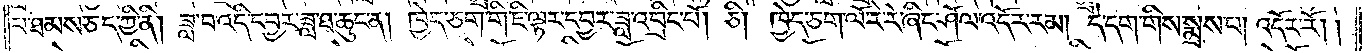པ་ཐམས་ཅད་ཀྱི་ནི། ཟླ་བ་འདི་དབྱར་ཟླ་ཐ་ཆུང་ན། ཁྱེད་ཅག་གི་ཇི་ལྟར་དབྱར་ཟླ་འབྲིང་པོ། ཅི། ཁྱེད་ཅག་ལོ་རེ་རེ་ཞིང་ཤོལ་འདོར་རམ། དེ་དག་གིས་སྨྲས་པ། འདོར་རོ། །
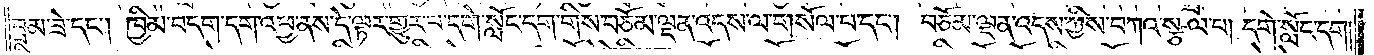བྲམ་ཟེ་དང༌། ཁྱིམ་བདག་དག་འཕྱ་ནས་དེ་ལྟར་གྱུར་པ་དགེ་སློང་དག་གིས་བཅོམ་ལྡན་འདས་ལ་གསོལ་པ་དང༌། བཅོམ་ལྡན་འདས་ཀྱིས་བཀའ་སྩལ་པ། དགེ་སློང་དག།
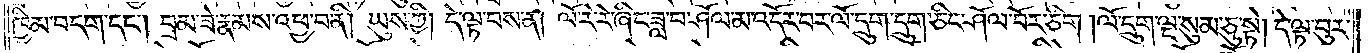ཁྱིམ་བདག་དང༌། བྲམ་ཟེ་རྣམས་འཕྱ་བ་ནི། ཡུས་ཀྱི། དེ་ལྟ་བས་ན། ལོ་རེ་རེ་ཞིང་ཟླ་བ་ཤོལ་མ་འདོར་བར་ལོ་དྲུག་དྲུག་ཅིང་ཤོལ་བོར་ཅིག །ལོ་དྲུག་ལྔ་སུམ་ཅུ་སྟེ། དེ་ལྟ་བུར་
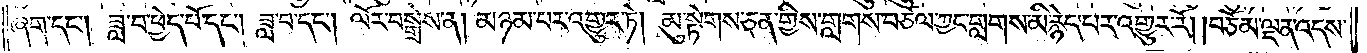ཞག་དང༌། ཟླ་བ་ཕྱེད་པོ་དང༌། ཟླ་བ་དང༌། ལོར་བསྒྲེས་ན། མཉམ་པར་འགྱུར་ཏེ། མུ་སྟེགས་ཅན་གྱིས་གླགས་བཙལ་ཀྱང་གླགས་མི་རྙེད་པར་འགྱུར་རོ། །བཅོམ་ལྡན་འདས་
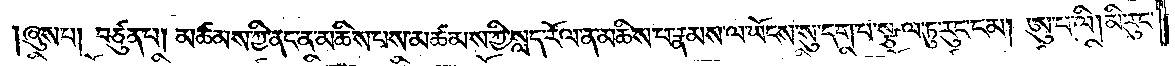ཞུས་པ། བཙུན་པ། མཚམས་ཀྱི་ནང་ན་མཆིས་པས་མཚམས་ཀྱི་སླད་རོལ་ན་མཆིས་པ་རྣམས་ལ་ཡོངས་སུ་དག་པ་སྩལ་ཏུ་རུང་ངམ། ཨུ་པ་ལི། མི་རུང་
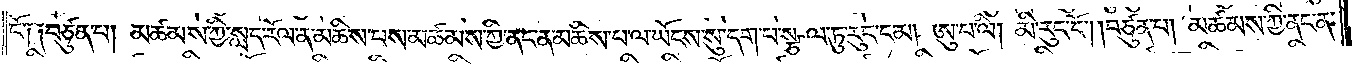ངོ༑ ༑བཙུན་པ། མཚམས་ཀྱི་སླད་རོལ་ན་མཆིས་པས་མཚམས་ཀྱི་ནང་ན་མཆིས་པ་ལ་ཡོངས་སུ་དག་པ་སྩལ་ཏུ་རུང་ངམ། ཨུ་པ་ལི། མི་རུང་ངོ༌། །བཙུན་པ། མཚམས་ཀྱི་ནང་ན་
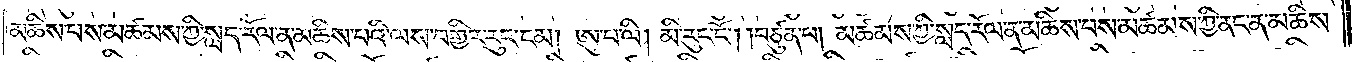མཆིས་པས་མཚམས་ཀྱི་སླད་རོལ་ན་མཆིས་པའི་ལས་བགྱིར་རུང་ངམ། ཨུ་པ་ལི། མི་རུང་ངོ༌། །བཙུན་པ། མཚམས་ཀྱི་སླད་རོལ་ན་མཆིས་པས་མཚམས་ཀྱི་ནང་ན་མཆིས་
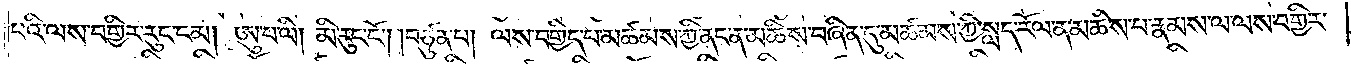པའི་ལས་བགྱིར་རུང་ངམ། ཨུ་པ་ལི། མི་རུང་ངོ༌། །བཙུན་པ། ལས་བགྱིད་པ་མཚམས་ཀྱི་ནང་ན་མཆིས་བཞིན་དུ་མཚམས་ཀྱི་སླད་རོལ་ན་མཆིས་པ་རྣམས་ལ་ལས་བགྱིར་
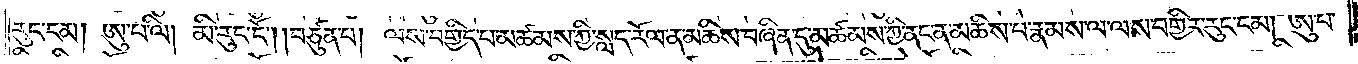རུང་ངམ། ཨུ་པ་ལི། མི་རུང་ངོ༌། །བཙུན་པ། ལས་བགྱིད་པ་མཚམས་ཀྱི་སླད་རོལ་ན་མཆིས་བཞིན་དུ་མཚམས་ཀྱི་ནང་ན་མཆིས་པ་རྣམས་ལ་ལས་བགྱིར་རུང་ངམ། ཨུ་པ་
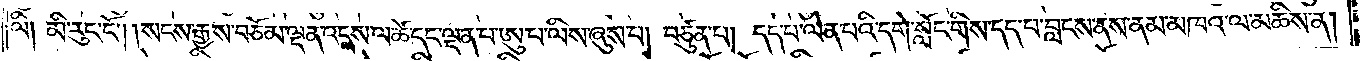ལི། མི་རུང་ངོ༌། །སངས་རྒྱས་བཅོམ་ལྡན་འདས་ལ་ཚེ་དང་ལྡན་པ་ཨུ་པ་ལིས་ཞུས་པ། བཙུན་པ། དད་པ་ལེན་པའི་དགེ་སློང་གིས་དད་པ་བླངས་ནས་ནམ་མཁའ་ལ་མཆིས་ན།
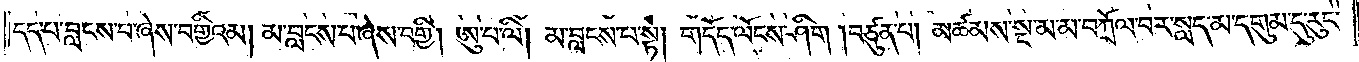དད་པ་བླངས་པ་ཞེས་བགྱིའམ། མ་བླངས་པ་ཞེས་བགྱི། ཨུ་པ་ལི། མ་བླངས་པ་སྟེ། གདོད་ལོངས་ཤིག །བཙུན་པ། མཚམས་སྔ་མ་མ་བཀྲོལ་བར་སླད་མ་དགུམ་དུ་རུང་
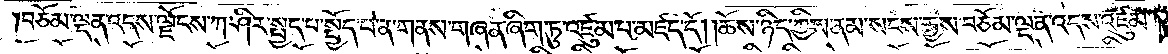བཅོམ་ལྡན་འདས་ལྗོངས་ཀ་ཤིར་སྤྱད་པ་སྤྱོད་པ་ན་གནས་གཞན་ཞིག་ཏུ་འཛུམ་པ་མཛད་དོ། །ཆོས་ཉིད་ཀྱིས་ནམ་སངས་རྒྱས་བཅོམ་ལྡན་འདས་འཛུམ་
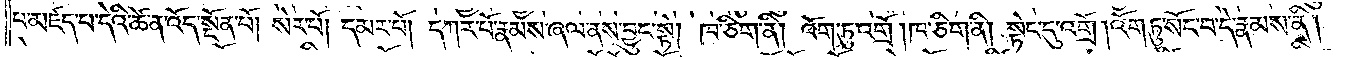པ་མཛད་པ་དེའི་ཚེ་ན་འོད་སྔོན་པོ། སེར་པོ། དམར་པོ། དཀར་པོ་རྣམས་ཞལ་ནས་བྱུང་སྟེ། ཁ་ཅིག་ནི། འོག་ཏུ་འགྲོ། ཁ་ཅིག་ནི། སྟེང་དུ་འགྲོ། འོག་ཏུ་སོང་བ་དེ་རྣམས་ནི།
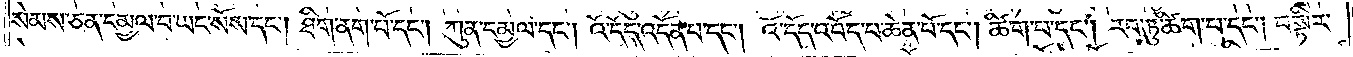སེམས་ཅན་དམྱལ་བ་ཡང་སོས་དང༌། ཐིག་ནག་པོ་དང༌། ཀུན་དམྱལ་དང༌། འོ་དོད་འདོན་པ་དང༌། འོ་དོད་འབོད་པ་ཆེན་པོ་དང༌། ཚིག་པ་དང༌། རབ་ཏུ་ཚིག་པ་དང༌། བསྟིར་
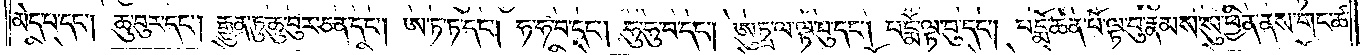མེད་པ་དང༌། ཆུ་བུར་དང༌། རྒྱུན་ཏུ་ཆུ་བུར་ཅན་དང༌། ཨ་ཏ་ཏ་དང༌། ཧ་ཧ་བ་དང༌། ཧུ་ཧུ་བ་དང༌། ཨུཏྤ་ལ་ལྟ་བུ་དང༌། པདྨོ་ལྟ་བུ་དང༌། པདྨོ་ཆེན་པོ་ལྟ་བུ་རྣམས་སུ་ཕྱིན་ནས་གང་ཚ་
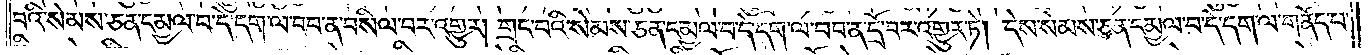བའི་སེམས་ཅན་དམྱལ་བ་དེ་དག་ལ་བབ་ན་བསིལ་བར་འགྱུར། གྲང་བའི་སེམས་ཅན་དམྱལ་བ་དེ་དག་ལ་བབ་ན་དྲོ་བར་འགྱུར་ཏེ། དེས་སེམས་ཅན་དམྱལ་བ་དེ་དག་ལ་གནོད་པ་
